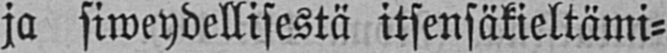ja siweydellisestä itsensäkieltämi-
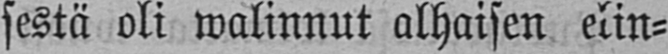sestä oli walinnut alhaisen elin-
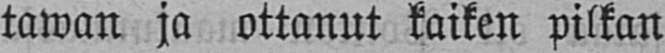tawan ja ottanut kaiken pilkan
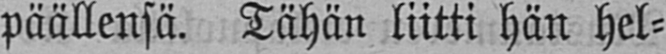päällensä. Tähän liitti hän hel-
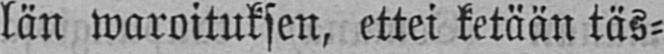län waroituksen, ettei ketään täs-
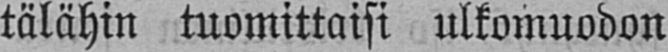tälähin tuomittaisi ulkomuodon
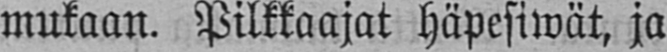mukaan. Pilkkaajat häpesiwät, ja
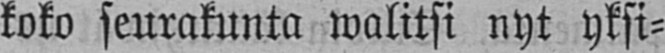koko seurakunta walitsi nyt yksi-
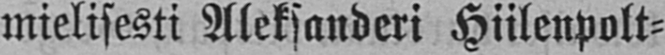mielisesti Aleksanderi Hiilenpolt-
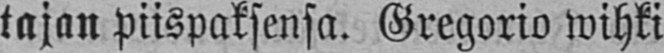tajan piispaksensa. Gregorio wihki
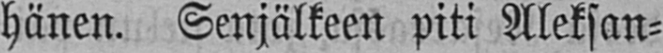hänen. Senjälkeen piti Aleksan-
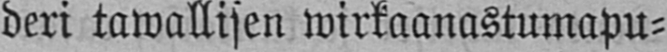deri tawallisen wirkaanastumapu-
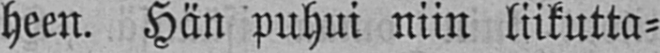heen. Hän puhui niin liikutta-
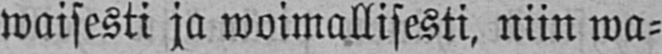waisesti ja woimallisesti, niin wa-
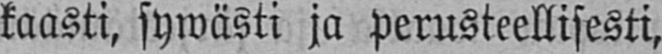kaasti, sywästi ja perusteellisesti,
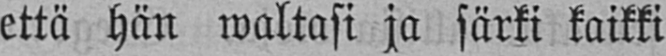että hän waltasi ja särki kaikki
